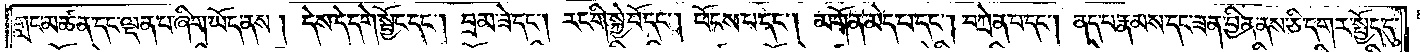གླང་མཚན་དང་ལྡན་པ་ཞིག་ཡོད་ནས། དེས་དེ་དགེ་སྦྱོང་དང༌། བྲམ་ཟེ་དང༌། རང་གི་སྐྱེ་བོ་དང༌། ཕོངས་པ་དང༌། མགོན་མེད་པ་དང༌། བཀྲེན་པ་དང༌། ནད་པ་རྣམས་དང་ཟན་བྱིན་ནས་ཅི་དགར་སྤྱོད་དུ་
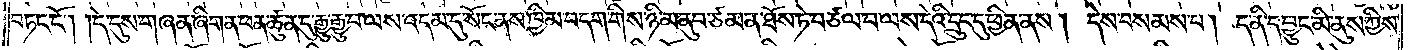བཏང་ངོ༌། །དེ་དུས་གཞན་ཞིག་ན་ཕན་ཚུན་དུ་རྒྱུ་རྒྱུ་བ་ལས་འདམ་དུ་སོང་ནས་ཁྱིམ་བདག་གིས་ཉི་མ་ནུབ་ཙམ་ན་ཐོས་ཏེ་བཙལ་བ་ལས་དེའི་དྲུང་དུ་ཕྱིན་ནས། དེས་བསམས་པ། ད་ནི་དབྱུང་མི་ནུས་ཀྱིས་
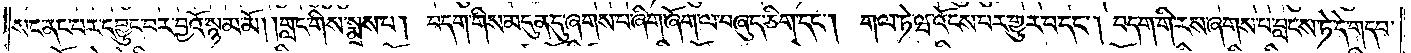སང་ནང་པར་དབྱུང་བར་བྱའོ་སྙམ་མོ། །གླང་གིས་སྨྲས་པ། བདག་གིས་མདུན་དུ་ཞགས་པ་ཞིག་ཞོག་ལ་བཞུད་ཅིག་དང༌། གལ་ཏེ་ཝ་འོངས་པར་གྱུར་པ་དང༌། བདག་གི་རས་ཞགས་པ་བླངས་ཏེ་དེ་གདབ་
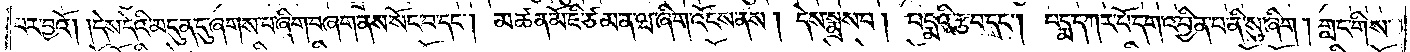པར་བྱའོ། །དེས་དེའི་མདུན་དུ་ཞགས་པ་ཞིག་བཞག་ནས་སོང་བ་དང༌། མཚན་མོ་ཇི་ཙམ་ན་ཝ་ཞིག་འོངས་ནས། དེས་སྨྲས་པ། པདྨའི་རྩ་བ་དང༌། པདྨ་དཀར་པོ་དག་འབྱིན་པ་ནི་སུ་ཞིག །གླང་གིས་
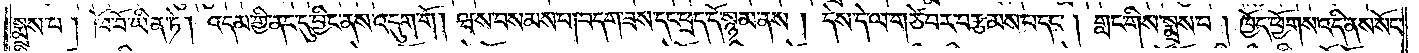སྨྲས་པ། ཁོ་བོ་ཡིན་ཏེ། འདམ་གྱི་ནང་དུ་བྱིང་ནས་འདུག་གོ །ཝས་བསམས་པ། བདག་ཟས་དང་ཕྲད་དོ་སྙམ་ནས། དེས་དེ་ལ་གཙེ་བར་བརྩམས་པ་དང༌། གླང་གིས་སྨྲས་པ། ཁྱོད་ཕྱོགས་འདི་ནས་སོང་
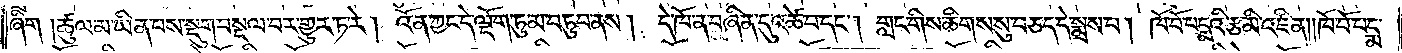ཞིག །ཚུལ་མ་ཡིན་པས་སྡུག་བསྔལ་བར་གྱུར་ཏ་རེ། འོན་ཀྱང་དེ་ལྡོག་ཏུ་མ་བཏུབ་ནས། དེ་ཁོ་ན་བཞིན་དུ་འཚེ་བ་དང༌། གླང་གིས་ཚིགས་སུ་བཅད་དེ་སྨྲས་པ། ཁོ་བོ་པདྨའི་རྩ་མི་འཛིན། །ཁོ་བོ་པདྨ་
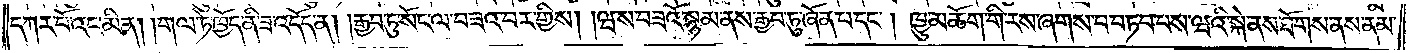དཀར་པོའང་མིན། །གལ་ཏེ་ཁྱོད་ནི་ཟ་འདོད་ན། །རྒྱབ་ཏུ་སོང་ལ་བཟའ་བར་གྱིས། །ཝས་བཟའོ་སྙམ་ནས་རྒྱབ་ཏུ་ཞོན་པ་དང༌། ཁྱུ་མཆོག་གི་རས་ཞགས་པ་བཏབ་པས་ཝའི་སྐེ་ནས་ཐོགས་ནས་ནམ་
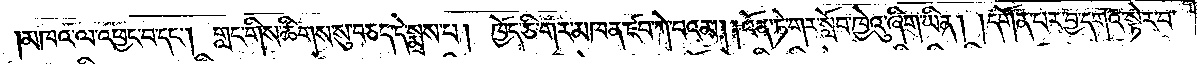མཁའ་ལ་འཕྱང་བ་དང༌། གླང་གིས་ཚིགས་སུ་བཅད་དེ་སྨྲས་པ། ཁྱོད་ཅི་གར་མཁན་ཛབ་ཀེ་བའམ། །འོན་ཏེ་གར་སློབ་ཁྱེའུ་ཞིག་ཡིན། །དགོན་པར་བྱ་དགའ་སྟེར་བ་
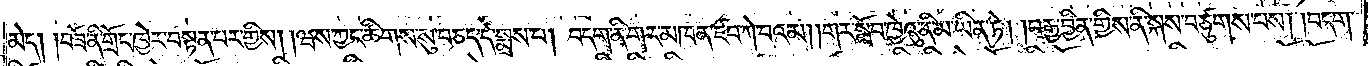མེད། །བཟོ་ནི་གྲོང་ཁྱེར་བསྟན་པར་གྱིས། །ཝས་ཀྱང་ཚིགས་སུ་བཅད་དེ་སྨྲས་པ། བདག་ནི་གར་མཁན་ཛབ་ཀེ་བའམ། །གར་སློབ་ཁྱེའུ་ནི་མ་ཡིན་ཏེ། །བརྒྱ་བྱིན་གྱིས་ནི་སྐས་བཙུགས་པས། །བདག་
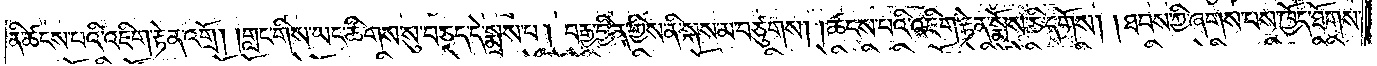ནི་ཚངས་པའི་འཇིག་རྟེན་འགྲོ། །གླང་གིས་ཡང་ཚིགས་སུ་བཅད་དེ་སྨྲས་པ། བརྒྱ་བྱིན་གྱིས་ནི་སྐས་མ་བཙུགས། །ཚངས་པའི་འཇིག་རྟེན་སྨོས་ཅི་དགོས། །ཐབས་ཀྱི་ཞགས་པས་ཁྱོད་ཐོགས་
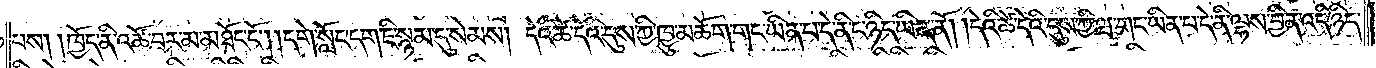པས། །ཁྱོད་ནི་འཚོ་བར་མ་མཐོང་ངོ༌། །དགེ་སློང་དག་ཇི་སྙམ་དུ་སེམས། དེའི་ཚེ་དེའི་དུས་ཀྱི་ཁྱུ་མཆོག་གང་ཡིན་པ་དེ་ནི་ང་ཉིད་ཡིན་ནོ། །དེའི་ཚེ་དེའི་དུས་ཀྱི་ཝ་གང་ཡིན་པ་དེ་ནི་ལྷས་བྱིན་འདི་ཉིད་
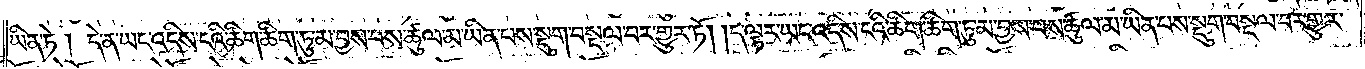ཡིན་ཏེ། དེ་ན་ཡང་འདིས་ངའི་ཚིག་ཚིག་ཏུ་མ་བྱས་པས་ཚུལ་མ་ཡིན་པས་སྡུག་བསྔལ་བར་གྱུར་ཏོ། །ད་ལྟར་ཡང་འདིས་ངའི་ཚིག་ཚིག་ཏུ་མ་བྱས་པས་ཚུལ་མ་ཡིན་པས་སྡུག་བསྔལ་བར་གྱུར་
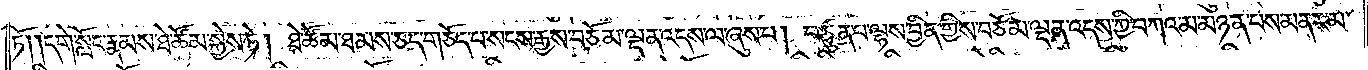ཏོ། །དགེ་སློང་རྣམས་ཐེ་ཚོམ་སྐྱེས་ཏེ། ཐེ་ཚོམ་ཐམས་ཅད་གཅོད་པ་སངས་རྒྱས་བཅོམ་ལྡན་འདས་ལ་ཞུས་པ། བཙུན་པ་ལྷས་བྱིན་གྱིས་བཅོམ་ལྡན་འདས་ཀྱི་བཀའ་མ་མཉན་པས་མནར་མ་
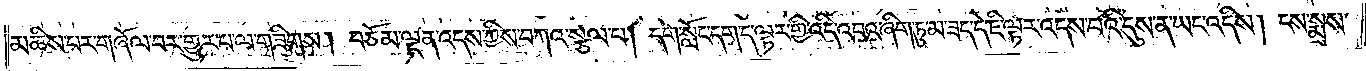མཆིས་པར་གཞོལ་བར་གྱུར་པ་ལ་གཟིགས། བཅོམ་ལྡན་འདས་ཀྱིས་བཀའ་སྩལ་པ། དགེ་སློང་དག་ད་ལྟར་གྱི་འདི་འབའ་ཞིག་ཏུ་མ་ཟད་དེ་ཇི་ལྟར་འདས་པའི་དུས་ན་ཡང་འདིས། ངས་སྨྲས་
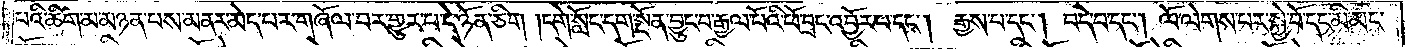པའི་ཚིག་མ་མཉན་པས་མནར་མེད་པར་གཞོལ་བར་གྱུར་པ་དེ་ཉོན་ཅིག །དགེ་སློང་དག་སྔོན་བྱུང་བ་རྒྱལ་པོའི་ཕོ་བྲང་འབྱོར་པ་དང༌། རྒྱས་པ་དང༌། བདེ་བ་དང༌། ལོ་ལེགས་པར་སྐྱེ་བོ་དང་མི་མང་
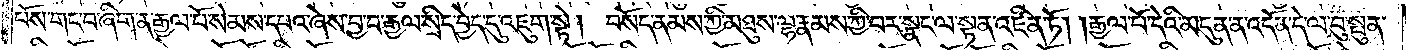པོས་གང་བ་ཞིག་ན་རྒྱལ་པོ་སེམས་དཔའ་ཞེས་བྱ་བ་རྒྱལ་སྲིད་བྱེད་དུ་འཇུག་སྟེ། བསོད་ནམས་ཀྱི་མཐུས་ལྷ་རྣམས་ཀྱི་བར་སྣང་ལ་སྟན་འཛིན་ཏོ། །རྒྱལ་པོ་དེའི་མདུན་ན་འདོན་དེ་ལ་བུ་སྤུན་
